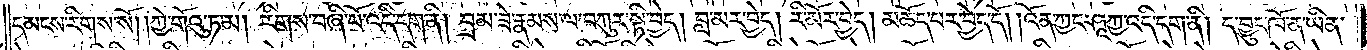དམངས་རིགས་སོ། །ཀྱེ་གོའུ་ཏ་མ། རིགས་བཞི་པོ་འདི་དག་ནི། བྲམ་ཟེ་རྣམས་ལ་བཀུར་སྟི་བྱེད། བླ་མར་བྱེད། རི་མོར་བྱེད། མཆོད་པར་བྱེད་དོ། །འོན་ཀྱང་ཤཱཀྱ་འདི་དག་ནི། ད་བྱུང་ཁོ་ན་ཡིན་
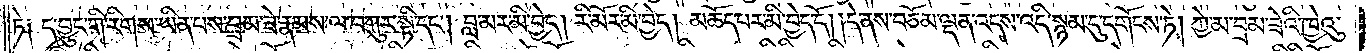ཏེ ༑ ད་བྱུང་གི་རིགས་ཡིན་པས་བྲམ་ཟེ་རྣམས་ལ་བཀུར་སྟི་དང༌། བླ་མར་མི་བྱེད། རི་མོར་མི་བྱེད། མཆོད་པར་མི་བྱེད་དོ། །དེ་ནས་བཅོམ་ལྡན་འདས་འདི་སྙམ་དུ་དགོངས་ཏེ། ཀྱེ་མ་བྲམ་ཟེའི་ཁྱེའུ་
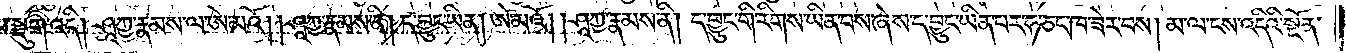མ་སྡུག་འདི། ཤཱཀྱ་རྣམས་ལ་ཨེ་མའོ། །ཤཱཀྱ་རྣམས་ནི། ད་བྱུང་ཡིན། ཨེ་མའོ། །ཤཱཀྱ་རྣམས་ནི། ད་བྱུང་གི་རིགས་ཡིན་པས་ཞེས་ད་བྱུང་ཡིན་པར་ཧ་ཅང་ཁ་ཟེར་བས། མ་ལ་ངས་འདིའི་སྔོན་
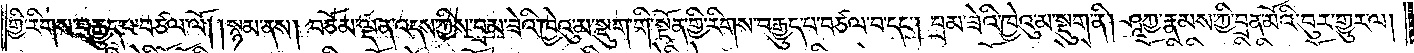གྱི་རིགས་བརྒྱུད་པ་བཙལ་ལོ། །སྙམ་ནས། བཅོམ་ལྡན་འདས་ཀྱིས་བྲམ་ཟེའི་ཁྱེའུ་མ་སྡུག་གི་སྔོན་གྱི་རིགས་བརྒྱུད་བ་བཙལ་བ་དང༌། བྲམ་ཟེའི་ཁྱེའུ་མ་སྡུག་ནི། ཤཱཀྱ་རྣམས་ཀྱི་བྲན་མོའི་བུར་གྱུར་ལ།
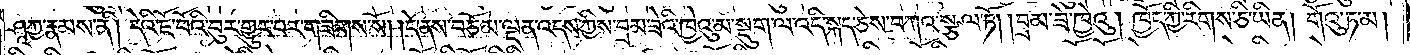ཤཱཀྱ་རྣམས་ནི། དེའི་ཇོ་བོའི་བུར་གྱུར་པར་གཟིགས་སོ། །དེ་ནས་བཅོམ་ལྡན་འདས་ཀྱིས་བྲམ་ཟེའི་ཁྱེའུ་མ་སྡུག་ལ་འདི་སྐད་ཅེས་བཀའ་སྩལ་ཏོ། །བྲམ་ཟེ་ཁྱེའུ། ཁྱོད་ཀྱི་རིགས་ཅི་ཡིན། གོའུ་ཏ་མ།
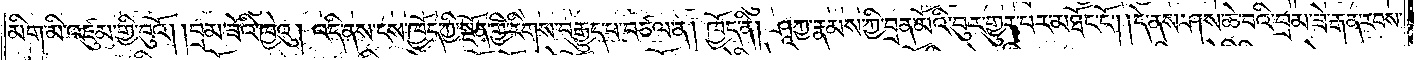མིག་མི་འཛུམ་གྱི་བུའོ། །བྲམ་ཟེའི་ཁྱེའུ། འདི་ནས་ངས་ཁྱོད་ཀྱི་སྔོན་གྱི་རིགས་བརྒྱུད་པ་བཙལ་ན། ཁྱོད་ནི། ཤཱཀྱ་རྣམས་ཀྱི་བྲན་མོའི་བུར་གྱུར་པར་མཐོང་ངོ༌། །དེ་ནས་ཤས་ཆེ་བའི་བྲམ་ཟེ་རྒན་རབས་
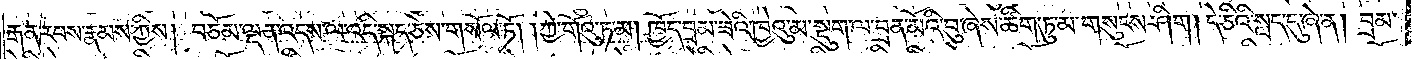རྒན་རབས་རྣམས་ཀྱིས། བཅོམ་ལྡན་འདས་ལ་འདི་སྐད་ཅེས་གསོལ་ཏོ། །ཀྱེ་གོའུ་ཏ་མ། ཁྱོད་བྲམ་ཟེའི་ཁྱེའུ་མ་སྡུག་ལ་བྲན་མོའི་བུ་ཞེས་ཚིག་ཏུ་མ་གསུངས་ཤིག །དེ་ཅིའི་སླད་དུ་ཞེ་ན། བྲམ་
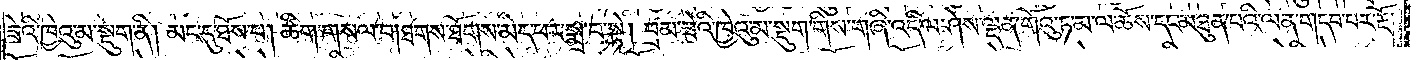ཟེའི་ཁྱེའུ་མ་སྡུག་ནི། མང་དུ་ཐོས་པ། ཚིག་གསལ་བ། ཐགས་ཐོགས་མེད་པར་སྨྲ་བ་སྟེ། བྲམ་ཟེའི་ཁྱེའུ་མ་སྡུག་གིས་གཞི་འདི་ལ་ཤེས་ལྡན་གོའུ་ཏ་མ་ལ་ཆོས་དང་མཐུན་པའི་ལན་གདབ་པར་རྔོ་
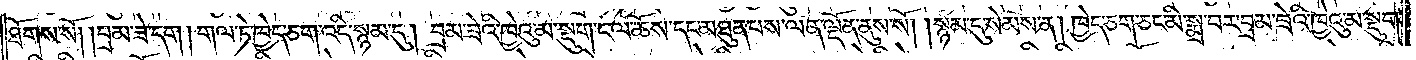ཐོགས་སོ། །བྲམ་ཟེ་དག །གལ་ཏེ་ཁྱེད་ཅག་འདི་སྙམ་དུ། བྲམ་ཟེའི་ཁྱེའུ་མ་སྡུག་ང་ལ་ཆོས་དང་མཐུན་པས་ལན་ལྡོན་ནུས་སོ། །སྙམ་དུ་སེམས་ན། ཁྱེད་ཅག་ཅང་མི་སྨྲ་བར་བྲམ་ཟེའི་ཁྱེའུ་མ་སྡུག་
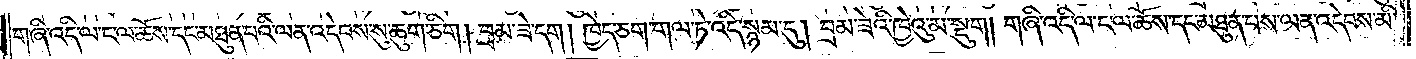གཞི་འདི་ལ་ང་ལ་ཆོས་དང་མཐུན་པའི་ལན་འདེབས་སུ་ཆུག་ཅིག །བྲམ་ཟེ་དག། ཁྱེད་ཅག་གལ་ཏེ་འདི་སྙམ་དུ། བྲམ་ཟེའི་ཁྱེའུ་མ་སྡུག །གཞི་འདི་ལ་ང་ལ་ཆོས་དང་མཐུན་པས་ལན་འདེབས་མི་
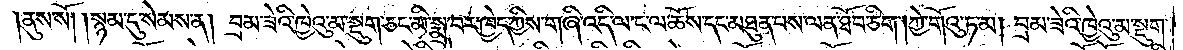ནུས་སོ། །སྙམ་དུ་སེམས་ན། བྲམ་ཟེའི་ཁྱེའུ་མ་སྡུག་ཅང་མི་སྨྲ་བར་ཁྱེད་ཀྱིས་གཞི་འདི་ལ་ང་ལ་ཆོས་དང་མཐུན་པས་ལན་ཐོབ་ཅིག །ཀྱེ་གོའུ་ཏ་མ། བྲམ་ཟེའི་ཁྱེའུ་མ་སྡུག་
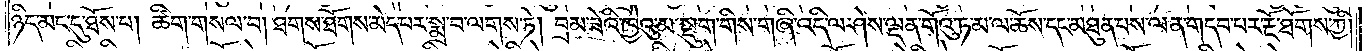ཉིད་མང་དུ་ཐོས་པ། ཚིག་གསལ་བ། ཐགས་ཐོགས་མེད་པར་སྨྲ་བ་ལགས་ཏེ། བྲམ་ཟེའི་ཁྱེའུ་མ་སྡུག་གིས་གཞི་འདི་ལ་ཤེས་ལྡན་གོའུ་ཏ་མ་ལ་ཆོས་དང་མཐུན་པས་ལན་གདབ་པར་རྔོ་ཐོགས་ཀྱི།
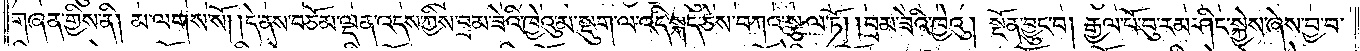གཞན་གྱིས་ནི། མ་ལགས་སོ། །དེ་ནས་བཅོམ་ལྡན་འདས་ཀྱིས་བྲམ་ཟེའི་ཁྱེའུ་མ་སྡུག་ལ་འདི་སྐད་ཅེས་བཀའ་སྩལ་ཏོ། །བྲམ་ཟེའི་ཁྱེའུ། སྔོན་བྱུང་བ། རྒྱལ་པོ་བུ་རམ་ཤིང་སྐྱེས་ཞེས་བྱ་བ་
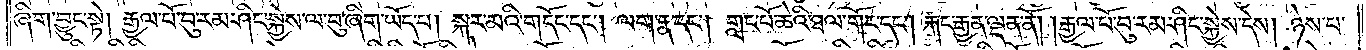ཞིག་བྱུང་སྟེ། རྒྱལ་པོ་བུ་རམ་ཤིང་སྐྱེས་ལ་བུ་ཞིག་ཡོད་པ། སྐར་མའི་གདོང་དང༌། ལག་རྣ་དང༌། གླང་པོ་ཆེའི་ཐལ་གོང་དང༌། རྐང་རྒྱན་ལྡན་ནོ། །རྒྱལ་པོ་བུ་རམ་ཤིང་སྐྱེས་དེས། ཉེས་པ་
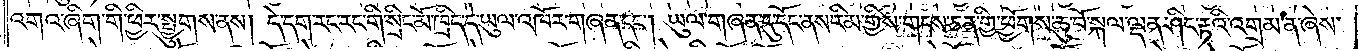འགའ་ཞིག་གི་ཕྱིར་སྤྱུགས་ནས། དེ་དག་རང་རང་གི་སྲིང་མོ་ཁྲིད་དེ་ཡུལ་འཁོར་གཞན་དང༌། ཡུལ་གཞན་དུ་དོང་ནས་རིམ་གྱིས་གངས་ཅན་གྱི་ཕྱོགས་ཆུ་བོ་སྐལ་ལྡན་ཤིང་རྟའི་འགྲམ་ན་ཞེས་
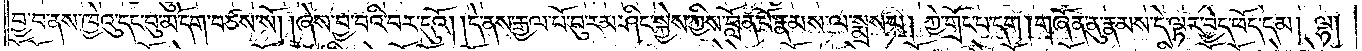བྱ་བ་ནས་ཁྱེའུ་དང་བུ་མོ་དག་བཙས་སོ། །ཞེས་བྱ་བའི་བར་དུའོ། །དེ་ནས་རྒྱལ་པོ་བུ་རམ་ཤིང་སྐྱེས་ཀྱིས་བློན་པོ་རྣམས་ལ་སྨྲས་པ། ཀྱེ་གྲོང་པ་དག །གཞོན་ནུ་རྣམས་དེ་ལྟར་བྱེད་ཕོད་དམ། ལྷ།
